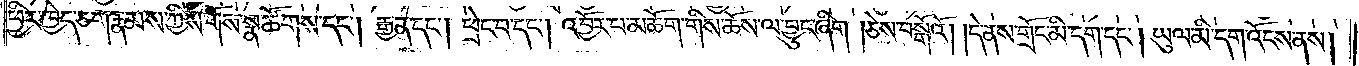ཕྱིར་ཁྱེད་ཅག་རྣམས་ཀྱིས་གོས་སྣ་ཚོགས་དང༌། རྒྱན་དང༌། ཕྲེང་བ་དང༌། འབྱོར་པ་མཆོག་གིས་ཆོས་ལ་བྱུང་ཞིག །ཅེས་བསྒོའོ། །དེ་ནས་གྲོང་མི་དག་དང༌། ཡུལ་མི་དག་འོངས་ནས།
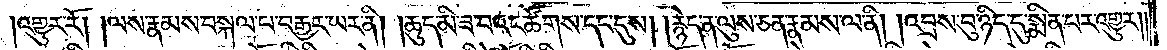འགྱུར་རོ། །ལས་རྣམས་བསྐལ་པ་བརྒྱར་ཡར་ནི། །ཆུད་མི་ཟ་བའང་ཚོགས་དང་དུས། །རྙེད་ན་ལུས་ཅན་རྣམས་ལ་ནི། །འབྲས་བུ་ཉིད་དུ་སྨིན་པར་འགྱུར། །
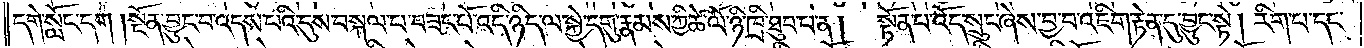དགེ་སློང་དག །སྔོན་བྱུང་བ་འདས་པའི་དུས་བསྐལ་པ་བཟང་པོ་འདི་ཉིད་ལ་སྐྱེ་དགུ་རྣམས་ཀྱི་ཚེ་ལོ་ཉི་ཁྲི་ཐུབ་པ་ན། སྟོན་པ་འོད་སྲུང་ཞེས་བྱ་བ་འཇིག་རྟེན་དུ་བྱུང་སྟེ། རིག་པ་དང་
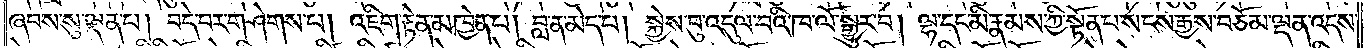ཞབས་སུ་ལྡན་པ། བདེ་བར་གཤེགས་པ། འཇིག་རྟེན་མཁྱེན་པ། བླ་ན་མེད་པ། སྐྱེས་བུ་འདུལ་བའི་ཁ་ལོ་སྒྱུར་བ། ལྷ་དང་མི་རྣམས་ཀྱི་སྟོན་པ་སངས་རྒྱས་བཅོམ་ལྡན་འདས་
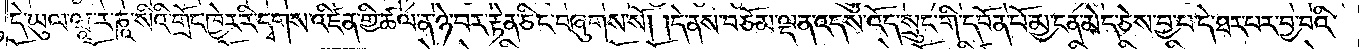དེ་ཡུལ་ཝཱ་ར་ཎཱ་སིའི་གྲོང་ཁྱེར་རི་དྭགས་འཛིན་གྱི་ཚལ་ན་ཉེ་བར་རྟེན་ཅིང་བཞུགས་སོ། །དེ་ནས་བཅོམ་ལྡན་འདས་འོད་སྲུང་གི་དབོན་པོ་མྱ་ངན་མེད་ཅེས་བྱ་བ་དེ་ཐར་པར་བྱ་བའི་
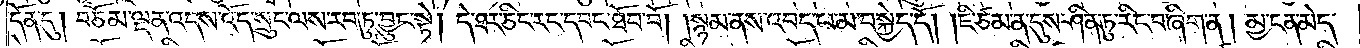དོན་དུ། བཅོམ་ལྡན་འདས་འོད་སྲུང་ལས་རབ་ཏུ་བྱུང་སྟེ། དེ་ཐར་ཅིང་རང་དབང་ཐོབ་བོ། །སྙམ་ནས་འབད་པ་མ་བསྐྱེད་དོ། །ཇི་ཙམ་ན་དུས་ཤིན་ཏུ་རིང་བ་ཞིག་ན། མྱ་ངན་མེད་
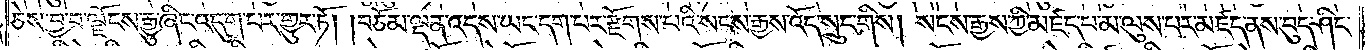ཅེས་བྱ་བ་ལྗོངས་རྒྱུ་ཞིང་འདུག་པར་གྱུར་ཏོ། །བཅོམ་ལྡན་འདས་ཡང་དག་པར་རྫོགས་པའི་སངས་རྒྱས་འོད་སྲུང་གིས། སངས་རྒྱས་ཀྱི་མཛད་པ་མ་ལུས་པར་མཛད་ནས་བུད་ཤིང་
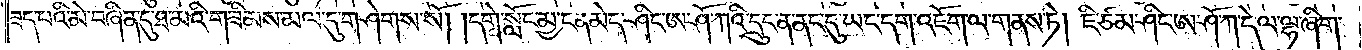ཟད་པའི་མེ་བཞིན་དུ་ཐ་མའི་གཟིམས་མལ་དུ་གཤེགས་སོ། །དགེ་སློང་མྱ་ངན་མེད་ཤིང་ཨ་ཤོ་ཀའི་དྲུང་ན་ནང་དུ་ཡང་དག་འཇོག་ལ་གནས་ཏེ། ཇི་ཙམ་ཤིང་ཨ་ཤོ་ཀ་དེ་ལ་ལྷ་ཞིག་
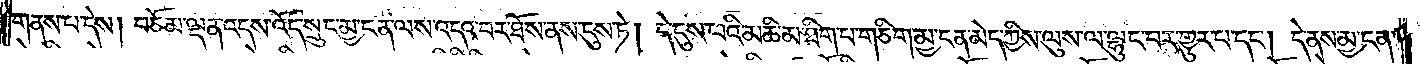གནས་པ་དེས། བཅོམ་ལྡན་འདས་འོད་སྲུང་མྱ་ངན་ལས་འདའ་བར་ཐོས་ནས་ངུས་ཏེ། དེ་ངུས་པའི་མཆི་མ་ཐིག་པ་གཅིག་མྱ་ངན་མེད་ཀྱིས་ལུས་ལ་ལྷུང་བར་གྱུར་པ་དང༌། དེ་ནས་མྱ་ངན་
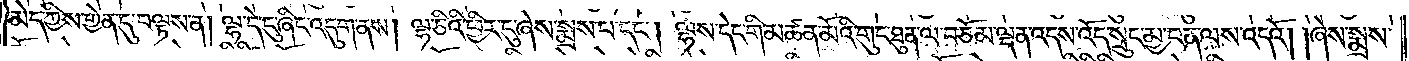མེད་ཀྱིས་གྱེན་དུ་བལྟས་ན། ལྷ་དེ་ངུ་ཞིང་འདུག་ནས། ལྷ་ཅིའི་ཕྱིར་ངུ་ཞེས་སྨྲས་པ་དང༌། ལྷས་དེང་གི་མཚན་མོའི་གུང་ཐུན་ལ་བཅོམ་ལྡན་འདས་འོད་སྲུང་མྱ་ངན་ལས་འདའོ། །ཞེས་སྨྲས་
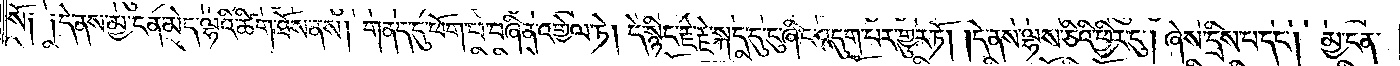སོ༑ ༑དེ་ནས་མྱ་ངན་མེད་ལྷའི་ཚིག་ཐོས་ནས། གནད་དུ་ཕོག་པ་བཞིན་འགྱེལ་ཏེ། དེ་སྙིང་རྗེ་རྗེ་སྐད་དུ་ངུ་ཞིང་འདུག་པར་གྱུར་ཏོ། །དེ་ནས་ལྷས་ཅིའི་ཕྱིར་དུ། །ཞེས་དྲིས་པ་དང༌། མྱ་ངན་
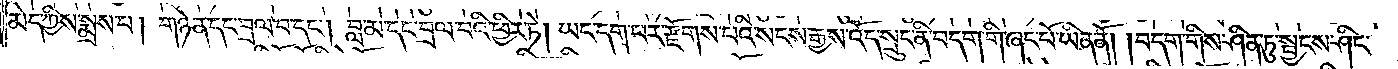མེད་ཀྱིས་སྨྲས་པ། གཉེན་དང་བྲལ་བ་དང༌། བླ་མ་དང་བྲལ་བའི་ཕྱིར་ཏེ། ཡང་དག་པར་རྫོགས་པའི་སངས་རྒྱས་འོད་སྲུང་ནི་བདག་གི་ཞང་པོ་ཡིན་ནོ། །བདག་གིས་ཤིན་ཏུ་སྦྱངས་ཤིང་
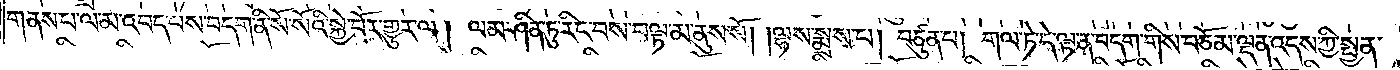གནས་པ་ལ་མ་འབད་པས་བདག་ནི་སོ་སོའི་སྐྱེ་བོར་གྱུར་ལ། ལམ་ཤིན་ཏུ་རིང་བས་བལྟ་མ་ནུས་སོ། །ལྷས་སྨྲས་པ། བཙུན་པ། གལ་ཏེ་དེ་ལྟ་ན་བདག་གིས་བཅོམ་ལྡན་འདས་ཀྱི་སྤྱན་
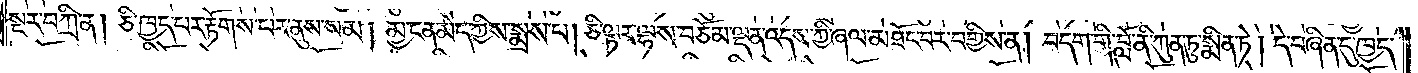སྔར་བཀྲི་ན། ཅི་ཁྱད་པར་རྟོགས་པར་ནུས་སམ། མྱ་ངན་མེད་ཀྱིས་སྨྲས་པ། ཅི་ལྟར་ལྷས་བཅོམ་ལྡན་འདས་ཀྱི་ཞལ་མཐོང་བར་བགྱིས་ན། བདག་གི་བློ་ནི་ཀུན་ཏུ་སྨིན་ཏེ། དེ་བཞིན་དུ་ཁྱད་
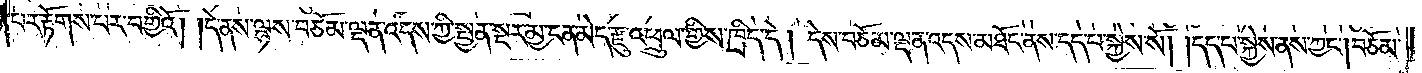པར་རྟོགས་པར་བགྱིའོ། །དེ་ནས་ལྷས་བཅོམ་ལྡན་འདས་ཀྱི་སྤྱན་སྔར་མྱ་ངན་མེད་རྫུ་འཕྲུལ་གྱིས་ཁྲིད་དེ། དེས་བཅོམ་ལྡན་འདས་མཐོང་ནས་དད་པ་སྐྱེས་སོ། །དད་པ་སྐྱེས་ནས་ཀྱང༌། བཅོམ་
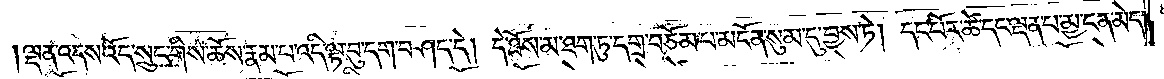ལྡན་འདས་འོད་སྲུང་གིས་ཆོས་རྣམ་པ་འདི་ལྟ་བུ་དག་བཤད་དེ། དེ་ཐོས་མ་ཐག་ཏུ་དགྲ་བཅོམ་པ་མངོན་སུམ་དུ་བྱས་ཏེ། དང་པོར་ཚེ་དང་ལྡན་པ་མྱ་ངན་མེད་
